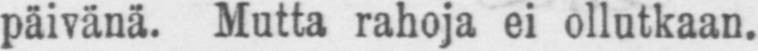päivänä, Mutta rahoja ei ollutkaan.
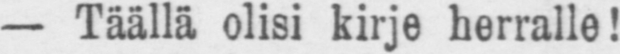— Täällä olisi kirje nerralle!
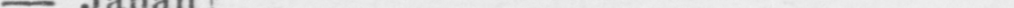— Jahah !
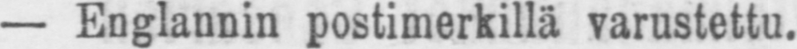— Englannin postimerkillä varustettu.
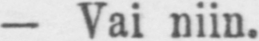— Vai niin.
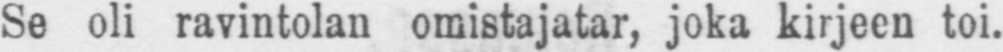Se oli ravintolan omistajatar, joka kirjeen toi.
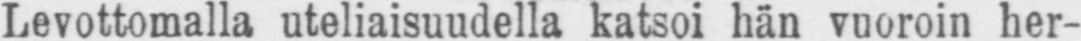Levottomalla uteliaisuudella Kktsoi hän vuoroin her-
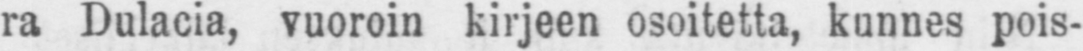ra Dulacia, vuoroin kirjeen osoitetta, kunnes pois-
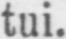tui.
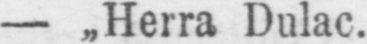— ˶Herra Dulac.
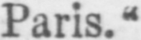Paris."
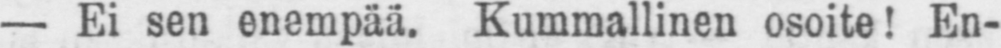— Ei sen enempää. Kummallinen osoite! En-
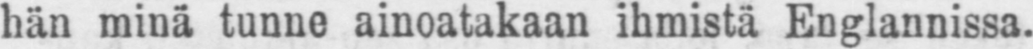hän minä tunne ainoatakaan ihmistä Englannissa.
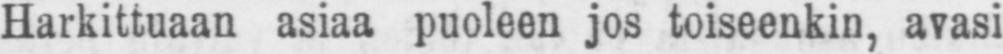Harkittuaan asiaa puoleen jos toiseenkin, avasi
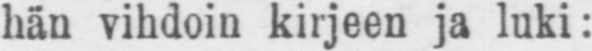hän vihdoin kirjeen ja luki:
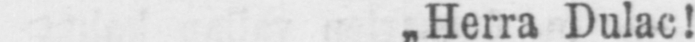˶Herra Dulac!
